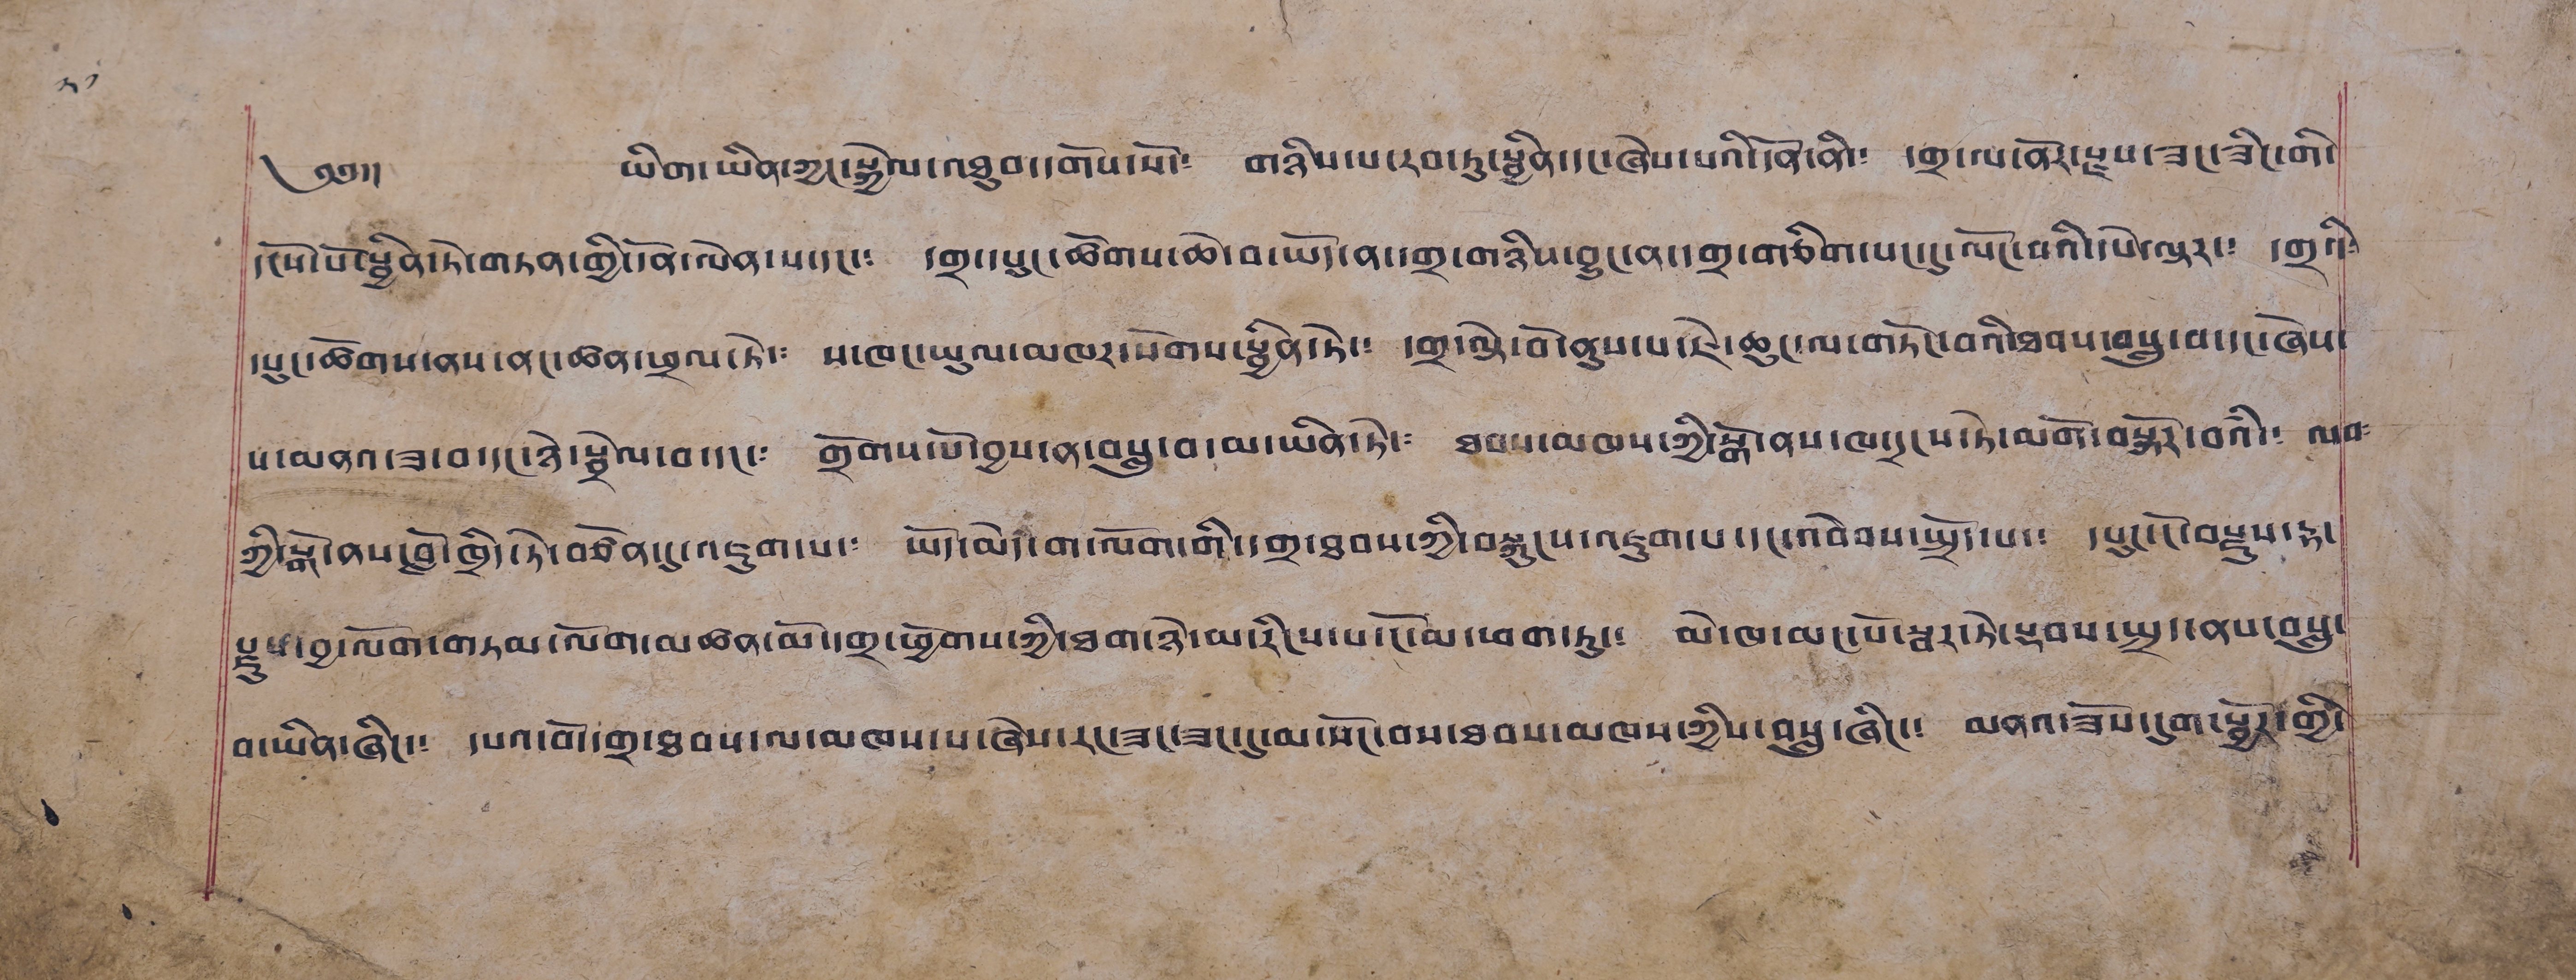༢༡
༄༅།། ཡིག་ཡིན་ཀྱང་སྐྱེལ་འཐུབ་དགོས་སོ་། གཉིས་པ་རབ་ཏུ་སྦྱིན་དང་ཞེས་པའི་དོན་ནི་། དགྲ་ལ་ནོར་རྫས་ཟང་ཟིང་གི་
དངོས་པོ་སྦྱིན་ཏེ་གཏན་གྱི་དོན་ལེན་པ་དང་། དགྲ་དཔུང་ཚོགས་ཆེ་བ་ཡོད་ན་དགྲ་གཉིས་བྱུང་ན་དགྲ་གཅིག་པང་དུ་ལོང་བའི་དཔེ་ལྟར་། དགྲའི་
དཔུང་ཚོགས་ནས་ནང་ཚན་ཕྲལ་ཏེ་། ས་ཁང་ཡུལ་མཁར་སོགས་སྦྱིན་ཏེ་། དགྲ་ལྡེ་བོ་ནུས་པ་ཇེ་ཆུང་ལ་གཏོང་བའི་ཐབས་བསླུ་བ་དང་ཞེས་
པ་མནའ་ཟ་བ་དང་ཉེ་སྦྲེལ་བ་དང་། གྲོགས་པོ་བྱས་ན་བསླུ་བ་མ་ཡིན་ཏེ་། ཐབས་མཁས་ཀྱི་སྒོ་ནས་ཁ་དྲངས་ཏེ་མགོ་བསྐོར་བའི་། ལབ་
ཀྱི་སྒོ་ནས་བློ་ཁྲིད་ཏེ་བཙོན་དུ་འཇུག་པ་། ཡོད་མེད་ག་ལོག་གི་དགྲ་ཐབས་ཀྱི་བསྐུངས་འཇུག་པ་དང་འབེབས་སྤྱོད་པ་། དཔུང་ངོ་བརྫུས་རྟ་
རྫུས་བྱ་ལོག་གཏམ་ལོག་མཚན་མོ་དགྲ་ཕྱོགས་ཀྱི་ཐག་ཉེ་མ་རིངས་པ་ངོ་མ་ཕག་ཏུ་། མེ་ཁ་མང་པོ་སྦར་ཏེ་སྟབས་སྤྲད་ནས་བསླུ་
བ་ཡིན་ཞིང་༴ དཔའ་བོ་དགྲ་ཐབས་ལ་མཁས་པ་ཞེས་རང་ཟང་ཟང་དུ་མ་སོང་བས་ཐབས་མཁས་ཀྱིས་བསླུ་ཞིང་། མནའ་ཟོས་དུག་སྦྱོར་གྱི་
